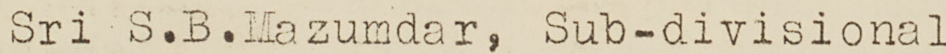Sri S.B. Mazumdar, Sub-divisional
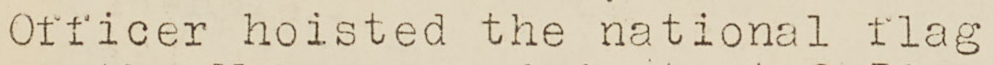Officer hoisted the national flag
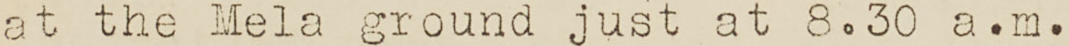at the Mela ground just at 8.30 a.m.
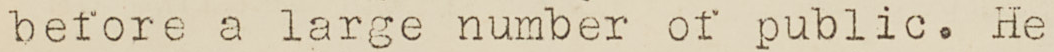before a large number of public. He
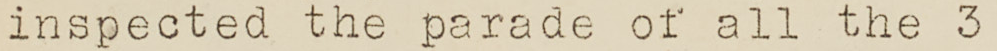inspected the parade of all the 3
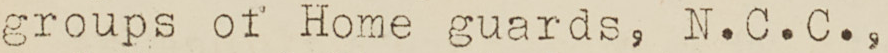groups of Home guards, N.C.C.
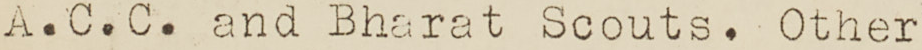A.C.C. and Bharat Scouts. Other
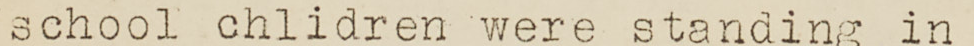school chlidren were standing in
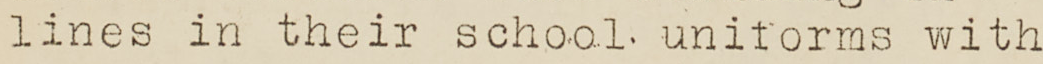lines in their school uniforms with
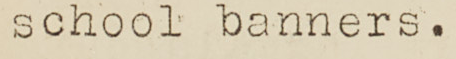school banners.
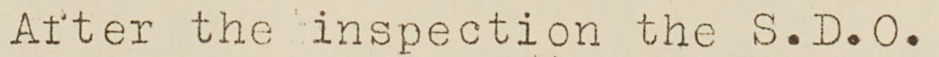After the inspection the S.D.O.
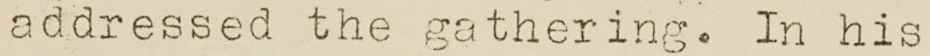addressed the gathering. In his
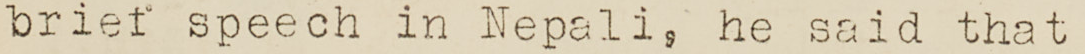brief speech in Nepali, he said that
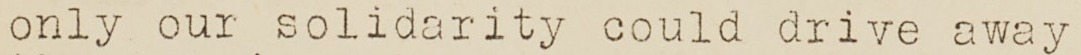only our solidarity could drive away
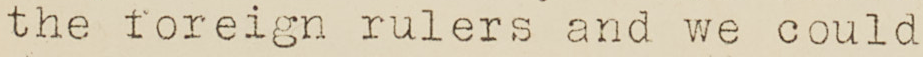the foreign rulers and we could
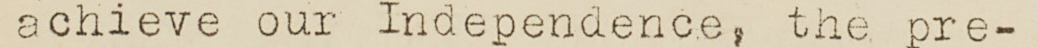achieve our Independence, the pre-
